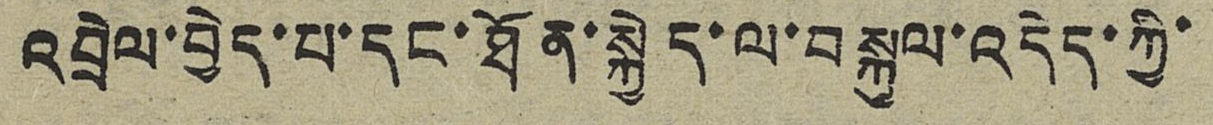འབྲེལ་བྱེད་པ་དང་ཐོན་སྐྱེད་ལ་བསྐུལ་འདེད་ཀྱི་
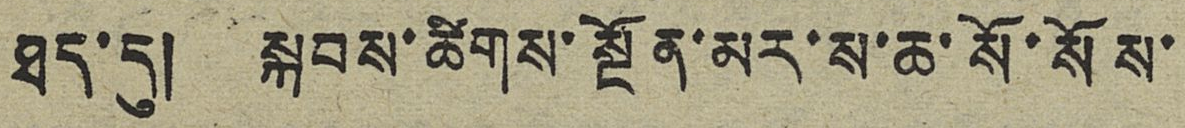ཐད་དུ། སྐབས་ཚིགས་སྔོན་མར་ས་ཆ་སོ་སོས་
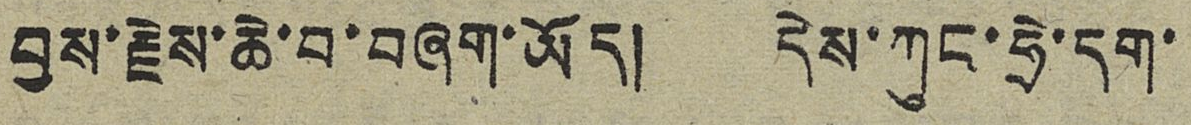བྱས་རྗེས་ཆེ་བ་བཞག་ཡོད། དེས་ཀུང་ཧྲེ་དག་
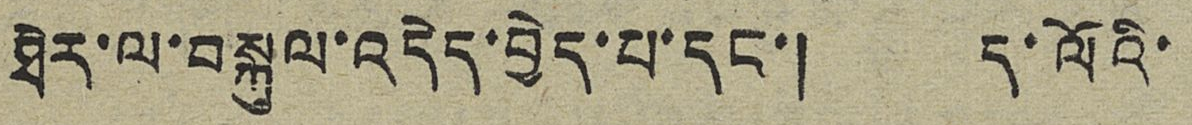ཐེར་ལ་བསྐུལ་འདེད་བྱེད་པ་དང་། ད་ལོའི་
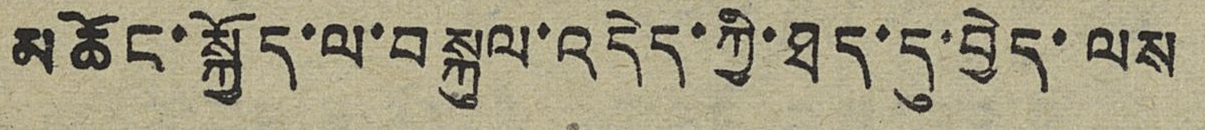མཆོང་སྐྱོད་ལ་བསྐུལ་འདེད་ཀྱི་ཐད་དུ་བྱེད་ལས
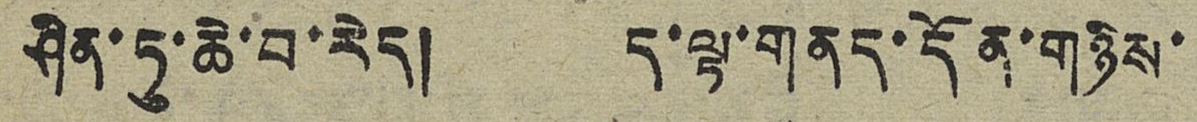ཤིན་ཏུ་ཆེ་བ་རེད། ད་ལྟ་གནད་དོན་གཉིས་
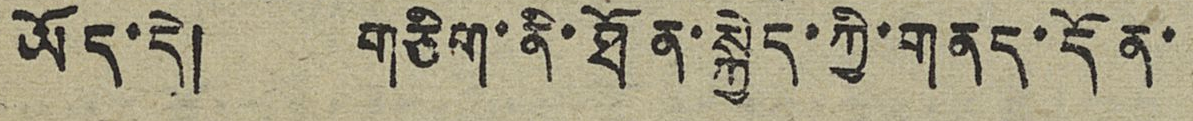ཡོད་དེ། གཅིག་ནི་ཐོན་སྐྱེད་ཀྱི་གནད་དོན་
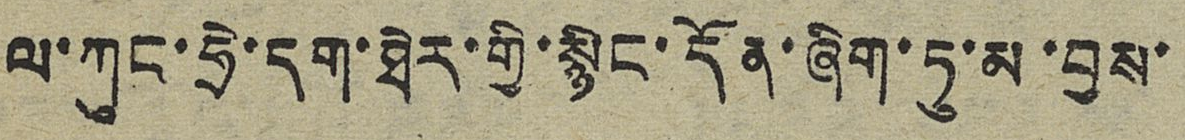ལ་ཀུང་ཧྲེ་དག་ཐེར་གྱི་སྙིང་དོན་ཞིག་ཏུ་མ་བྱས་
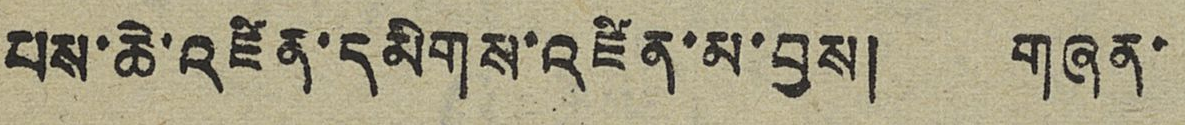པས་ཆེ་འཛིན་དམིགས་འཛིན་མ་བྱས། གཞན་
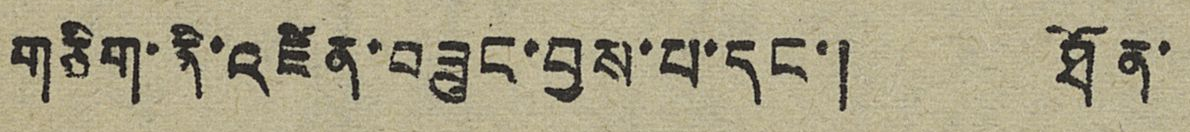གཅིག་ནི་འཛིན་བཟུང་བྱས་པ་དང་། ཐོན་
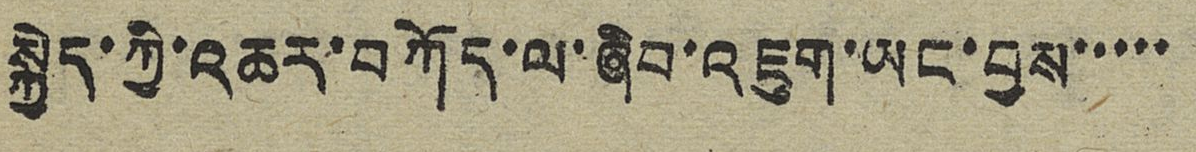སྐྱེད་ཀྱི་འཆར་བཀོད་ལ་ཞིབ་འཇུག་ཡང་བྱས་་་་་
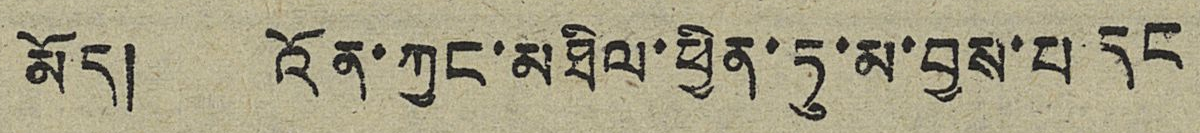མོད། འོན་ཀྱང་མཐིལ་ཕྱིན་ཏུ་མ་བྱས་པ དང
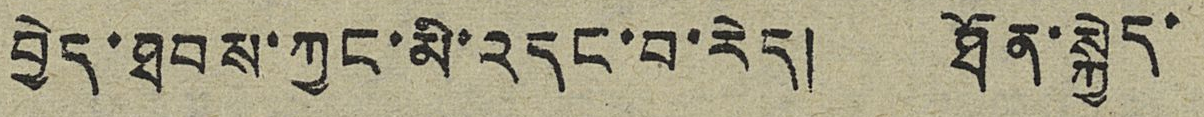བྱེད་ཐབས་ཀྱང་མི་འདང་བ་རེད། ཐོན་སྐྱེད་
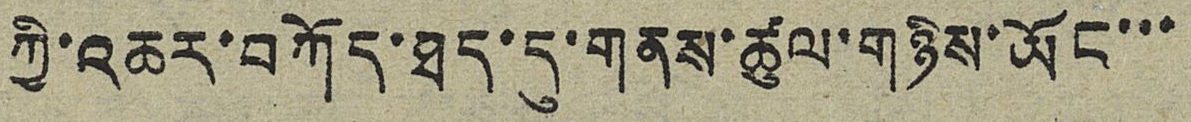ཀྱི་འཆར་བཀོད་ཐད་དུ་གནས་ཚུལ་གཉིས་ཡོང་་་
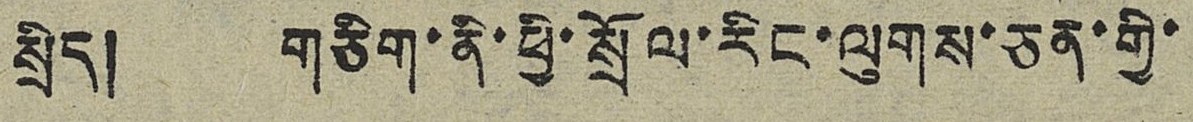སྲིད། གཅིག་ནི་ཕྱི་སྲོལ་རིང་ལུགས་ཅན་གྱི་
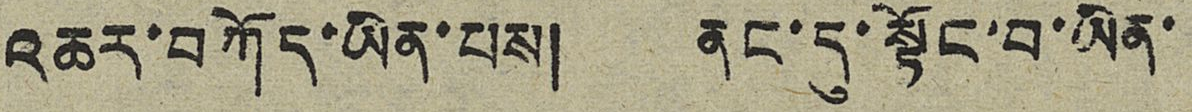འཆར་བཀོད་ཡིན་པས། ནང་དུ་སྟོང་བ་ཡིན་
